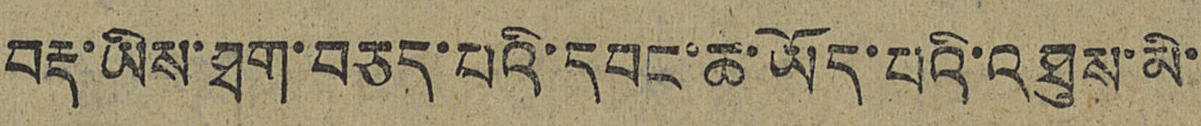བརྡ་ཡིས་ཐག་བཅད་པའི་དབང་ཆ་ཡོད་པའི་འཐུས་མི་
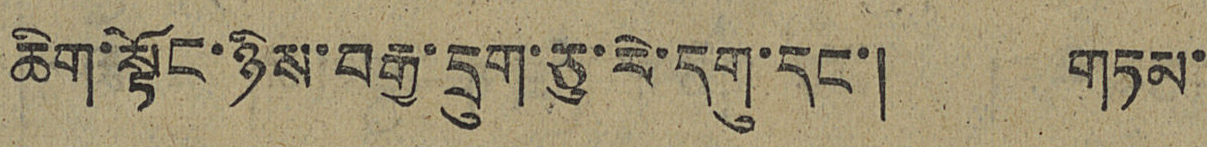ཆིག་སྟོང་ཉིས་བརྒྱ་དྲུག་ཅུ་རེ་དགུ་དང་། གཏམ་
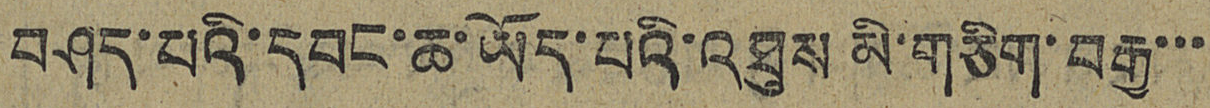བཤད་པའི་དབང་ཆ་ཡོད་པའི་འཐུས མི་གཅིག་བརྒྱ་་་
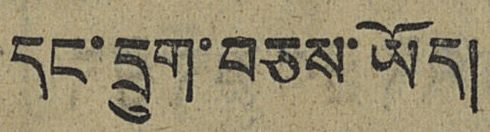དང་དྲུག་བཅས་ཡོད།
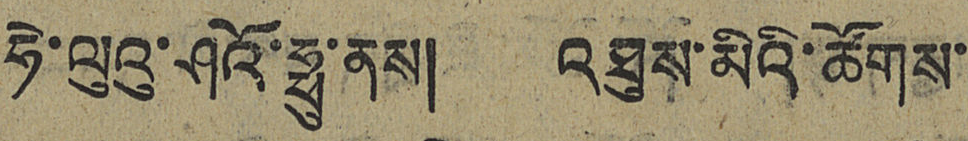ཧེ་ལུའུ་ཤའོ་ཧྥུ་ནས། འཐུས་མིའི་ཚོགས་
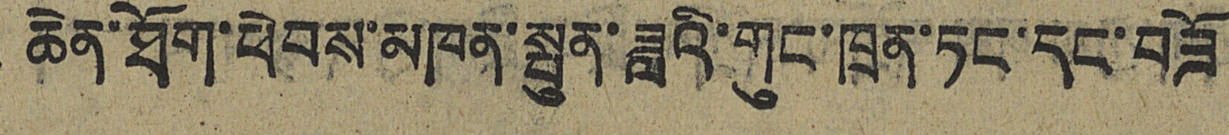ཆེན་ཐོག་ཕེབས་མཁན་སྤུན་ཟླའི་གུང་ཁྲན་ཏང་དང་བཟོ
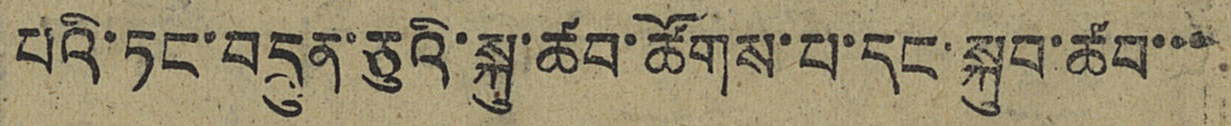པའི་ཏང་བདྲུན་ཅུའི་སྐུ་ཚབ་ཚོགས་པ་དང་སྐུབ་ཚབ་་་
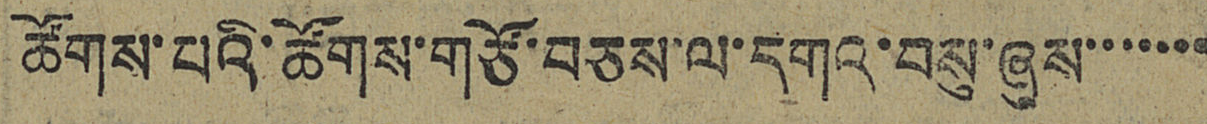ཚོགས་པའི་ཚོགས་གཙོ་བཅས་ལ་དགའ་བསུ་ཞུས་་་་་་་
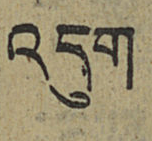འདུག
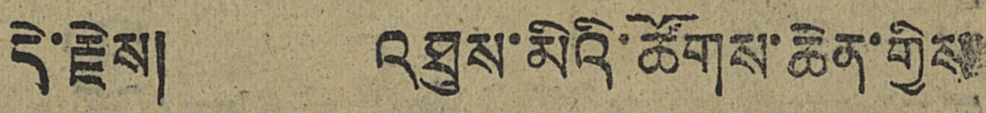དེ་རྗེས། འཐུས་མིའི་ཚོགས་ཆེན་གྱིས
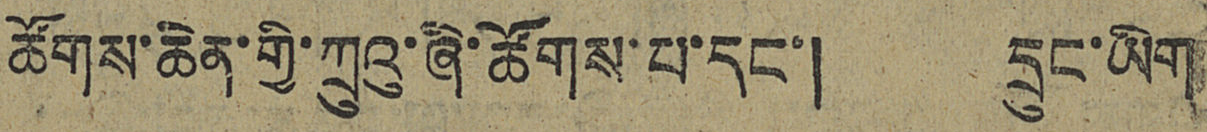ཚོགས་ཆེན་གྱི་ཀྲུའུ་ཞི་ཚོགས་པ་དང་། དྲུང་ཡིག
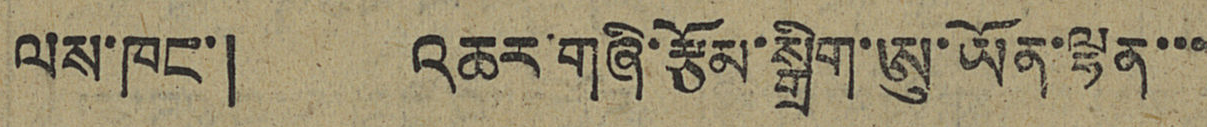ལས་ཁང་། འཆར་གཞི་རྩོམ་སྒྲིག་ཨུ་ཡོན་ལྷན་་་
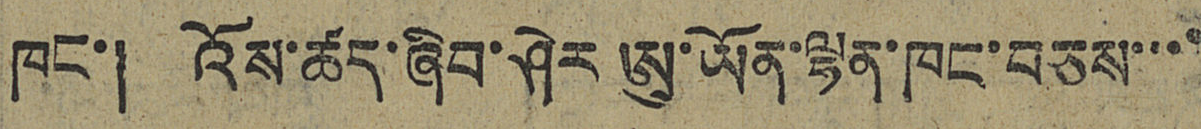ཁང་། འོས་ཚད་ཞིབ་ཤེར ཨུ་ཡོན་ལྷན་ཁང་བཅས་་་
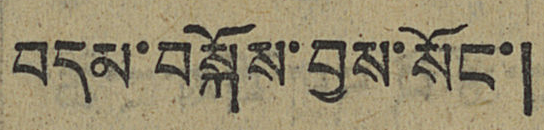བདམ་བསྐོས་བྱས་སོང་།
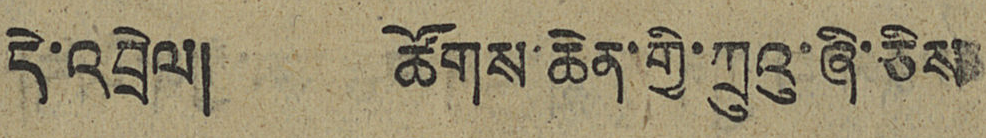དེ་འབྲེལ། ཚོགས་ཆེན་གྱི་ཀྲུའུ་ཞི་ཅིས
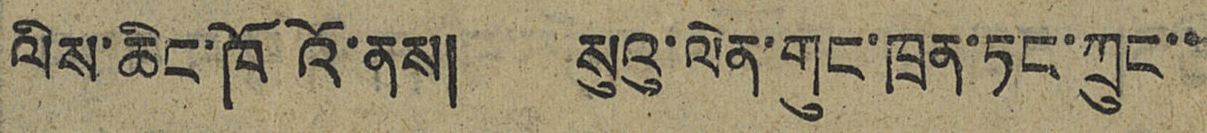ལིས་ཆིང་ཁོའོ་ནས། སུའུ་ལེན་གུང་ཁྲན་ཏང་ཀྲུང་་
